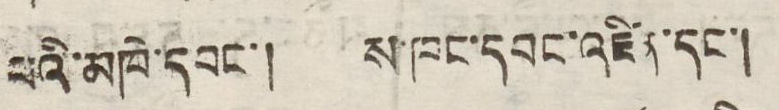པའི་མཁེ་དབང་། ས་ཁང་དབང་འཛིན་དང་།
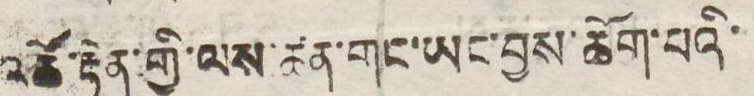འཚོ་རྟེན་གྱི་ལས་ཚན་གང་ཡང་བྱས་ཆོག་པའི་
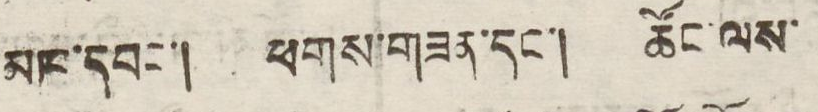མཁ་དབང་། ཕགས་གཟན་དང། ཚོང་ལས་
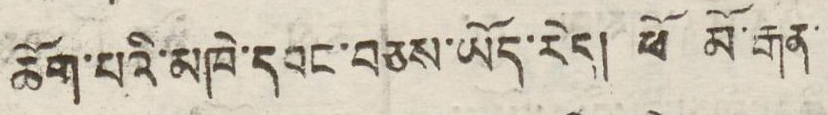ཆོག་པའི་མཁེ་དབང་བཅས་ཡོད་རེད། ཕོ མོ་རྒན་
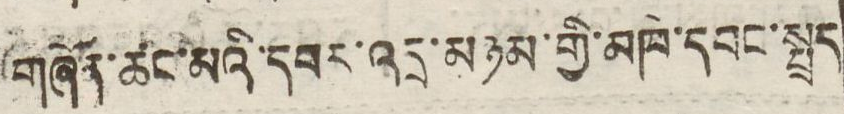གཞོན་ཚང་མའི་དབར་འདྲ་མཉམ་གྱི་མཁེ་དབང་སྤྲད་
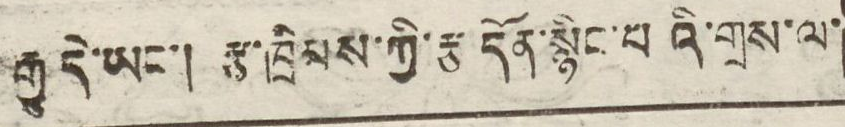རྒྱུ་དེ་ཡང་། རྩ་ཁྲིམས་ཀྱི་རྩ དོན་སྙིང་པའི་གྲས་ལ་
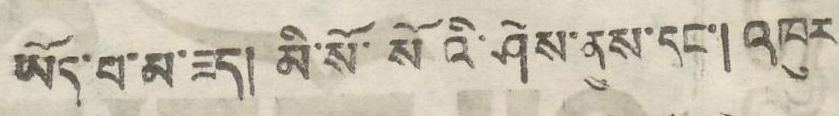ཡོད་པ་མ་ཟད། མི་སོ་སོའི་ཤེས་ནུས་དང་། འཁུར
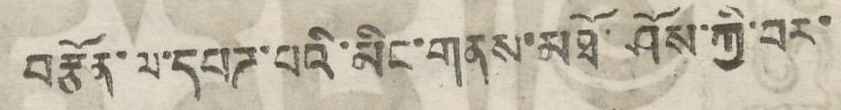བརྩོན་ལ་དཔཌ་པའི་མིང་གནས་མཐོ་ཤོས་ཀྱི་ཅར་
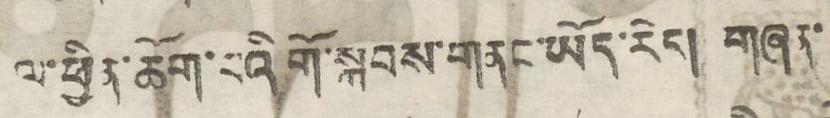ལ་ཕྱིན་ཆོག་པའི གོ་སྐབས་གནང་ཡོད་རེད གཞན་
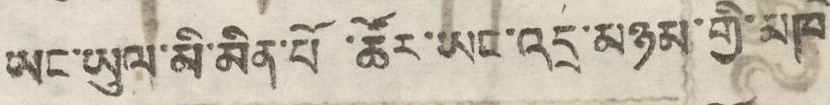ཡང་ཡུལ་མི་མིན་པོ ་ཚོར་ཡང་འདྲ་མཉམ་གྱི་མཁེ
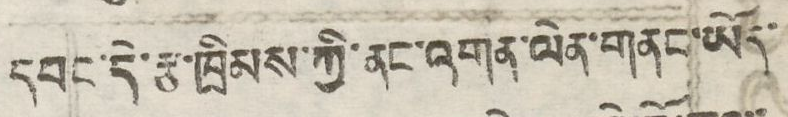དབང་དེ་རྩ་ཁྲིམས་ཀྱི་ནང་འགན་ལེན་གནང་ཡོད་
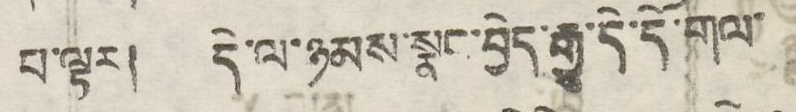པ་ལྟར། དེ་ལ་ཉམས་སྣང་བྱེད་རྒྱུ་དེ་དོ་གལ་
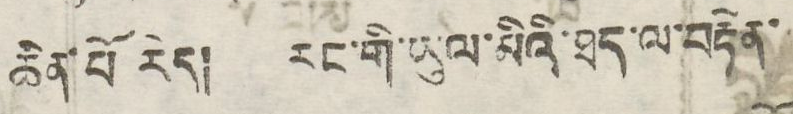ཆེན་པོ རེད། རང་གི་ཡུལ་མིའི་ཐད་ལ་བརྟེན་
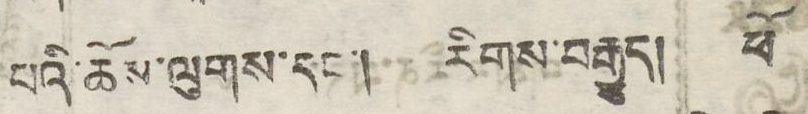པའི་ཆོས་ལུགས་དང་། རིགས་བརྒྱུད། ཕོ
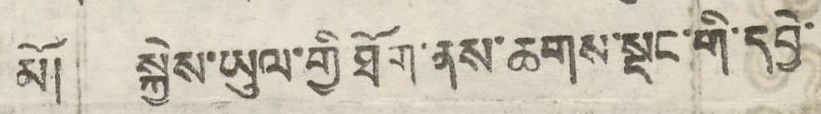མོ། སྐྱེས་ཡུལ་གྱི ཐོག་ནས་ཆགས་སྡང་གི་དབྱེ་
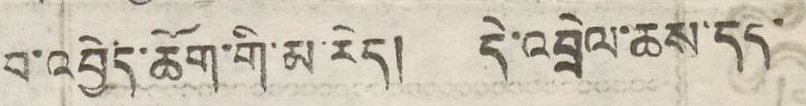བ་འབྱེད་ཆོག་གི་མ་རེད། དེ་འབྲེལ་ཆས་དད་
